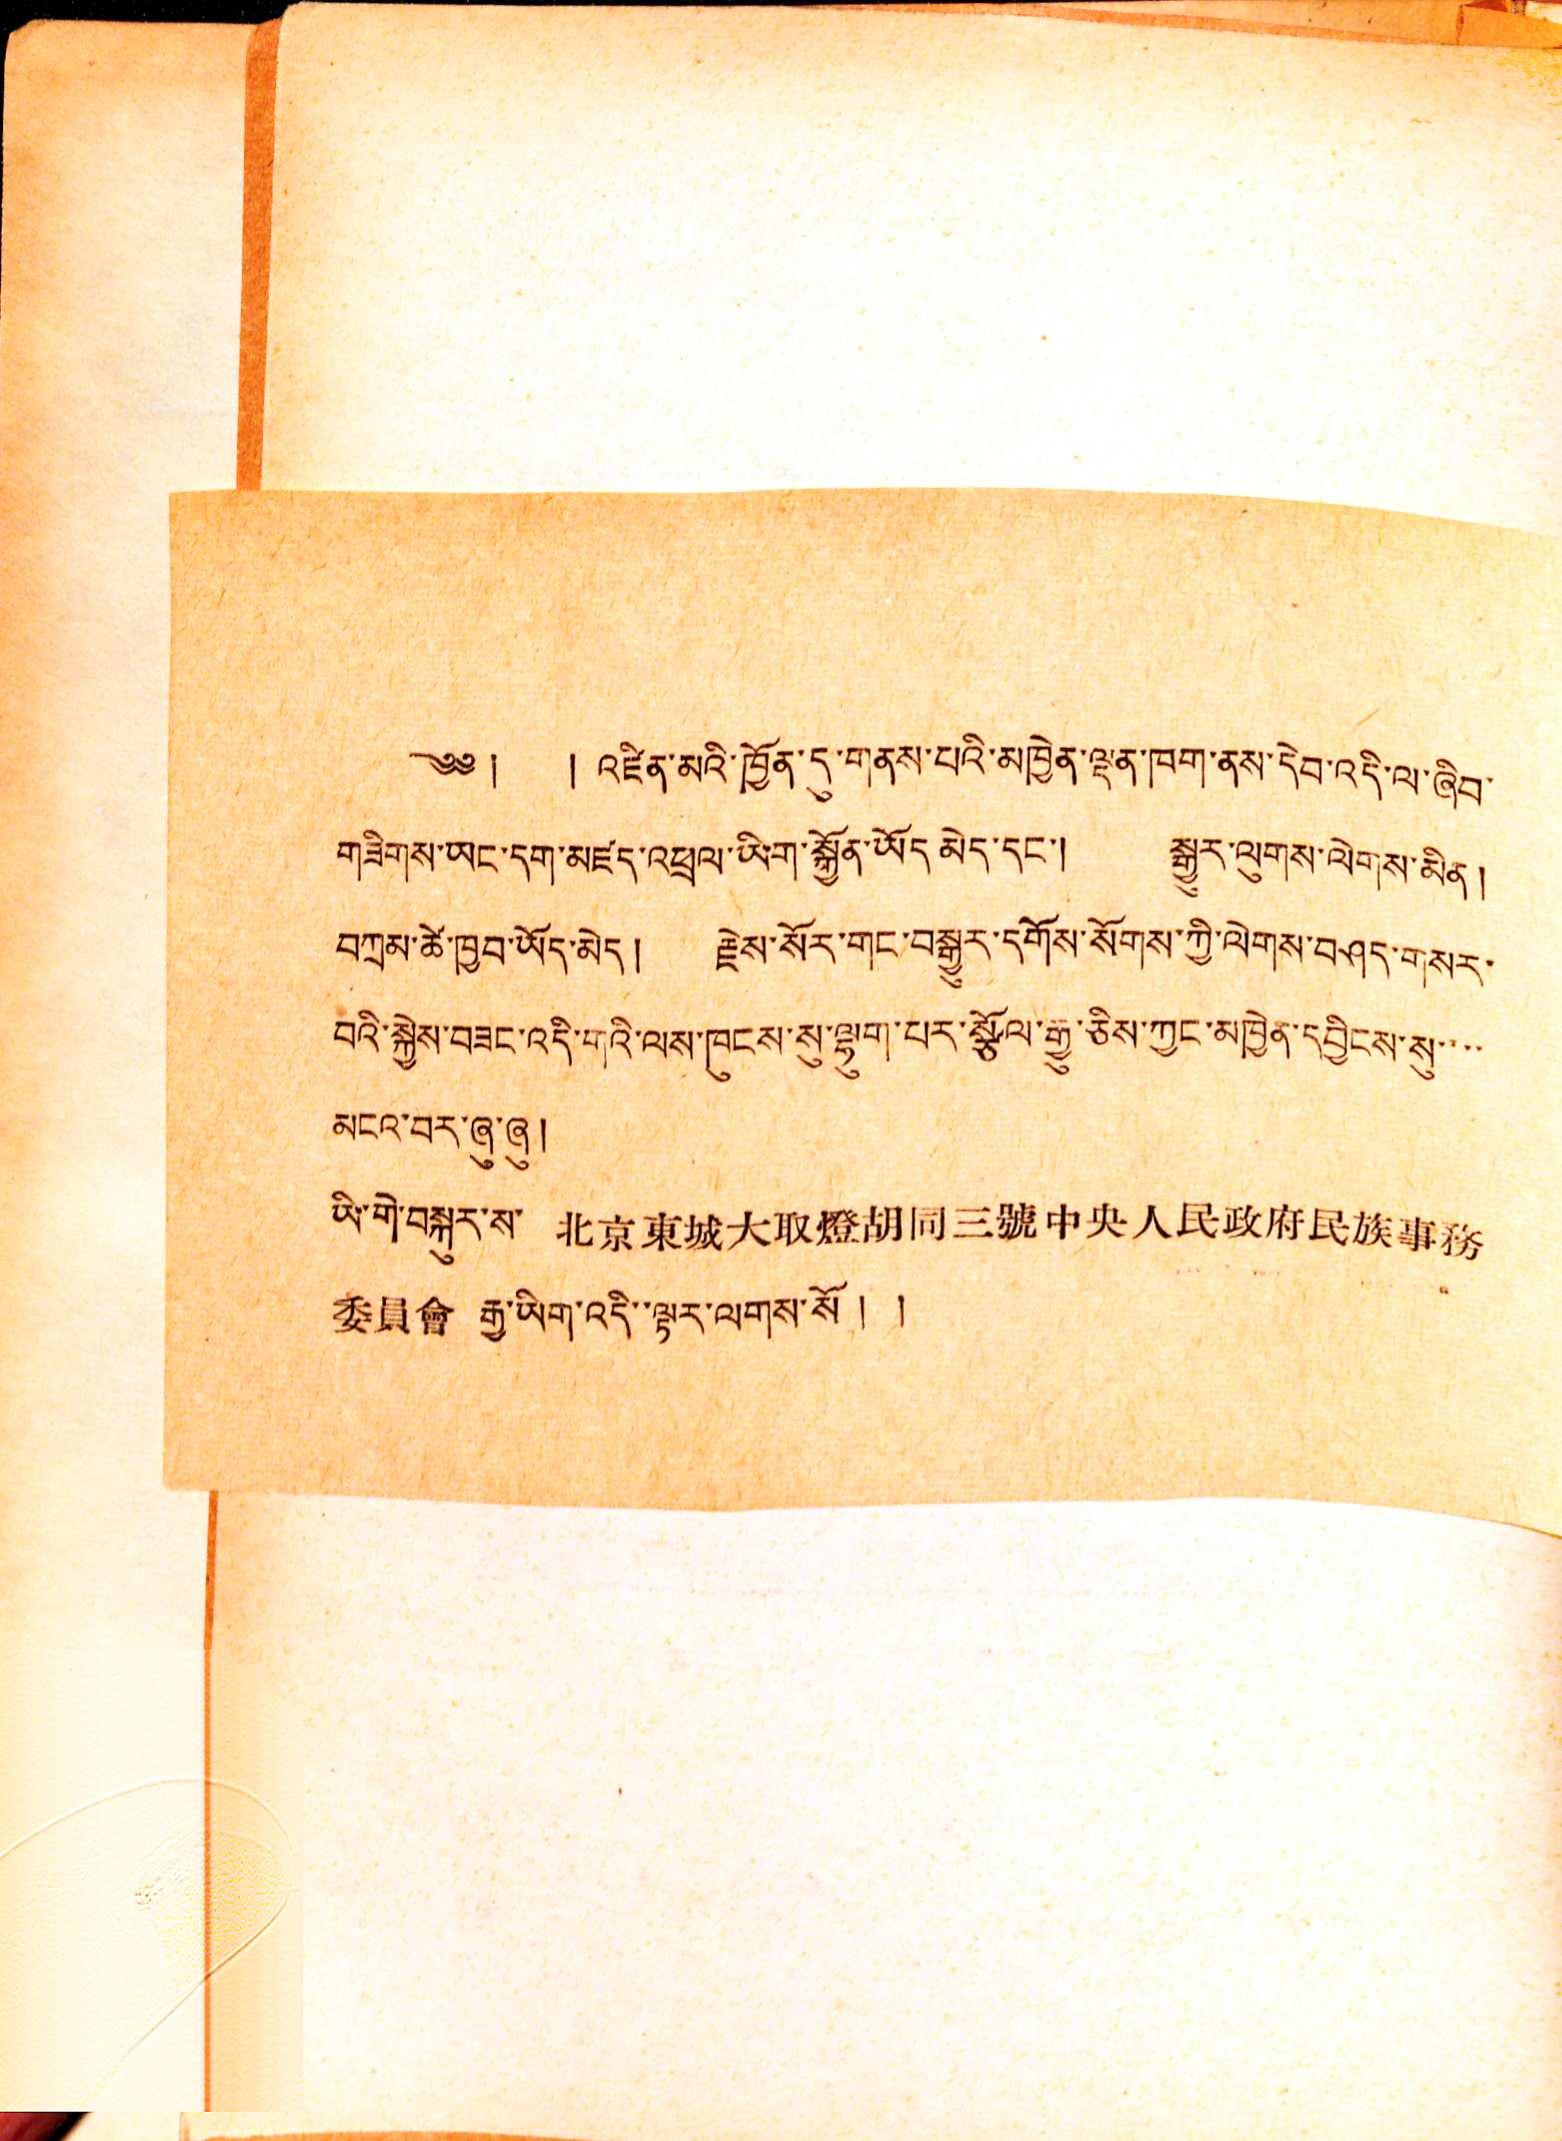༄༅། ། འཛིན་མའི་ཁྱོན་དུ་གནས་པའི་མཁྱེན་ལྡན་ཁག་ནས་དེབ་འདི་ལ་ཞིབ་
གཟིགས་ཡང་དག་མཛད་འཕྲལ་ཡིག་སྒྱོན་ཡོད་མེད་དང་། སྒྱུར་ལུགས་ལེགས་མིན།
བཀྲམ་ཚེ་ཁྱབ་ཡོད་མེད། རྗེས་སོར་གང་བསྒྱུར་དགོས་སོགས་གྱི་ལེགས་བཤད་གསར་
བའི་སྐྱེས་བཟང་འདི་གའི་ལས་ཁུངས་སུ་ལྷུག་པར་སྩོལ་རྒྱུ་ཅིས་ཀྱང་མཁྱེན་དབྱིངས་སུ་་་་
མནགའ་བར་ཞུ་ཞུ།
ཡི་གེ་བསྐུར་ས་ 北京東城大取燈胡同三號中央人民政府民族事務
委員會 རྒྱ་ཡིག་འདི་ལྟར་ལགས་སོ། །
